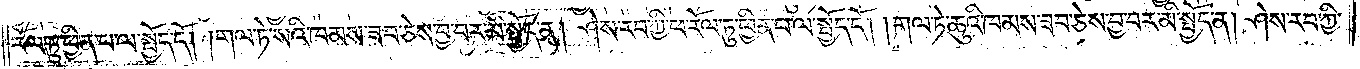རོལ་ཏུ་ཕྱིན་པ་ལ་སྤྱོད་དོ། །གལ་ཏེ་སའི་ཁམས་ཟབ་ཅེས་བྱ་བར་མི་སྤྱོད་ན། ཤེས་རབ་ཀྱི་ཕ་རོལ་ཏུ་ཕྱིན་པ་ལ་སྤྱོད་དོ། །གལ་ཏེ་ཆུའི་ཁམས་ཟབ་ཅེས་བྱ་བར་མི་སྤྱོད་ན། ཤེས་རབ་ཀྱི་
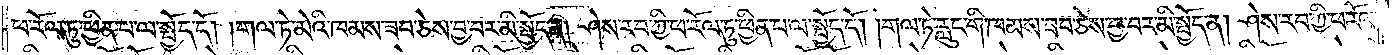ཕ་རོལ་ཏུ་ཕྱིན་པ་ལ་སྤྱོད་དོ། །གལ་ཏེ་མེའི་ཁམས་ཟབ་ཅེས་བྱ་བར་མི་སྤྱོད་ན། ཤེས་རབ་ཀྱི་ཕ་རོལ་ཏུ་ཕྱིན་པ་ལ་སྤྱོད་དོ། །གལ་ཏེ་རླུང་གི་ཁམས་ཟབ་ཅེས་བྱ་བར་མི་སྤྱོད་ན། ཤེས་རབ་ཀྱི་ཕ་རོལ་
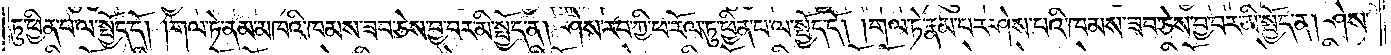ཏུ་ཕྱིན་པ་ལ་སྤྱོད་དོ། །གལ་ཏེ་ནམ་མཁའི་ཁམས་ཟབ་ཅེས་བྱ་བར་མི་སྤྱོད་ན། ཤེས་རབ་ཀྱི་ཕ་རོལ་ཏུ་ཕྱིན་པ་ལ་སྤྱོད་དོ། །གལ་ཏེ་རྣམ་པར་ཤེས་པའི་ཁམས་ཟབ་ཅེས་བྱ་བར་མི་སྤྱོད་ན། ཤེས་
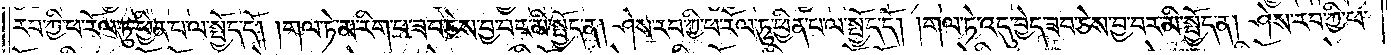རབ་ཀྱི་ཕ་རོལ་ཏུ་ཕྱིན་པ་ལ་སྤྱོད་དོ། །གལ་ཏེ་མ་རིག་པ་ཟབ་ཅེས་བྱ་བར་མི་སྤྱོད་ན། ཤེས་རབ་ཀྱི་ཕ་རོལ་ཏུ་ཕྱིན་པ་ལ་སྤྱོད་དོ། །གལ་ཏེ་འདུ་བྱེད་ཟབ་ཅེས་བྱ་བར་མི་སྤྱོད་ན། ཤེས་རབ་ཀྱི་ཕ་
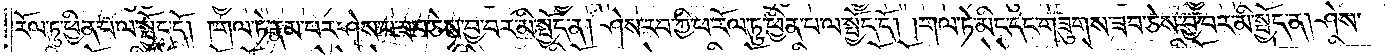རོལ་ཏུ་ཕྱིན་པ་ལ་སྤྱོད་དོ། །གལ་ཏེ་རྣམ་པར་ཤེས་པ་ཟབ་ཅེས་བྱ་བར་མི་སྤྱོད་ན། ཤེས་རབ་ཀྱི་ཕ་རོལ་ཏུ་ཕྱིན་པ་ལ་སྤྱོད་དོ། །གལ་ཏེ་མིང་དང་གཟུགས་ཟབ་ཅེས་བྱ་བར་མི་སྤྱོད་ན། ཤེས་
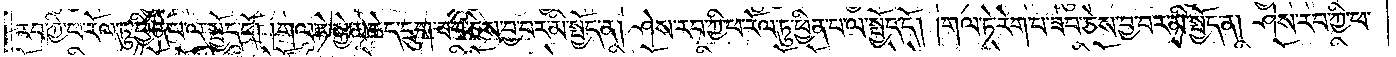རབ་ཀྱི་ཕ་རོལ་ཏུ་ཕྱིན་པ་ལ་སྤྱོད་དོ། །གལ་ཏེ་སྐྱེ་མཆེད་དྲུག་ཟབ་ཅེས་བྱ་བར་མི་སྤྱོད་ན། ཤེས་རབ་ཀྱི་ཕ་རོལ་ཏུ་ཕྱིན་པ་ལ་སྤྱོད་དོ། །གལ་ཏེ་རེག་པ་ཟབ་ཅེས་བྱ་བར་མི་སྤྱོད་ན། ཤེས་རབ་ཀྱི་ཕ་
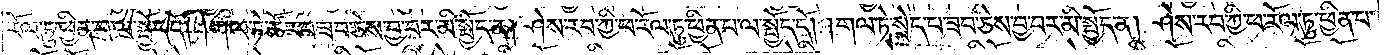རོལ་ཏུ་ཕྱིན་པ་ལ་སྤྱོད་དོ། །གལ་ཏེ་ཚོར་བ་ཟབ་ཅེས་བྱ་བར་མི་སྤྱོད་ན། ཤེས་རབ་ཀྱི་ཕ་རོལ་ཏུ་ཕྱིན་པ་ལ་སྤྱོད་དོ། །གལ་ཏེ་སྲེད་པ་ཟབ་ཅེས་བྱ་བར་མི་སྤྱོད་ན། ཤེས་རབ་ཀྱི་ཕ་རོལ་ཏུ་ཕྱིན་པ་
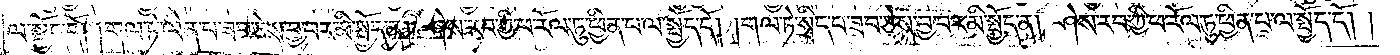ལ་སྤྱོད་དོ། །གལ་ཏེ་ལེན་པ་ཟབ་ཅེས་བྱ་བར་མི་སྤྱོད་ན། ཤེས་རབ་ཀྱི་ཕ་རོལ་ཏུ་ཕྱིན་པ་ལ་སྤྱོད་དོ། །གལ་ཏེ་སྲིད་པ་ཟབ་ཅེས་བྱ་བར་མི་སྤྱོད་ན། ཤེས་རབ་ཀྱི་ཕ་རོལ་ཏུ་ཕྱིན་པ་ལ་སྤྱོད་དོ། །
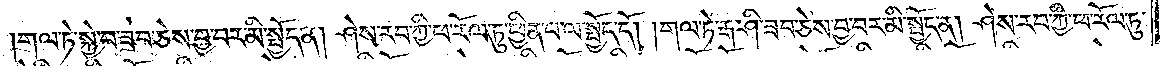གལ་ཏེ་སྐྱེ་བ་ཟབ་ཅེས་བྱ་བར་མི་སྤྱོད་ན། ཤེས་རབ་ཀྱི་ཕ་རོལ་ཏུ་ཕྱིན་པ་ལ་སྤྱོད་དོ། །གལ་ཏེ་རྒ་ཤི་ཟབ་ཅེས་བྱ་བར་མི་སྤྱོད་ན། ཤེས་རབ་ཀྱི་ཕ་རོལ་ཏུ་
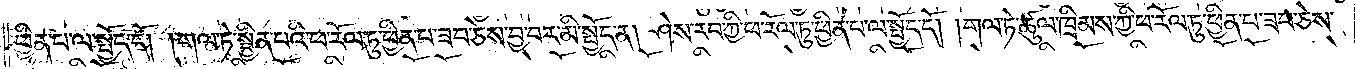ཕྱིན་པ་ལ་སྤྱོད་དོ། །གལ་ཏེ་སྦྱིན་པའི་ཕ་རོལ་ཏུ་ཕྱིན་པ་ཟབ་ཅེས་བྱ་བར་མི་སྤྱོད་ན། ཤེས་རབ་ཀྱི་ཕ་རོལ་ཏུ་ཕྱིན་པ་ལ་སྤྱོད་དོ། །གལ་ཏེ་ཚུལ་ཁྲིམས་ཀྱི་ཕ་རོལ་ཏུ་ཕྱིན་པ་ཟབ་ཅེས་
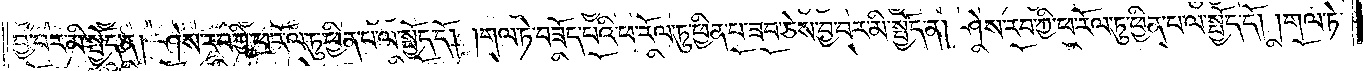བྱ་བར་མི་སྤྱོད་ན། ཤེས་རབ་ཀྱི་ཕ་རོལ་ཏུ་ཕྱིན་པ་ལ་སྤྱོད་དོ། །གལ་ཏེ་བཟོད་པའི་ཕ་རོལ་ཏུ་ཕྱིན་པ་ཟབ་ཅེས་བྱ་བར་མི་སྤྱོད་ན། ཤེས་རབ་ཀྱི་ཕ་རོལ་ཏུ་ཕྱིན་པ་ལ་སྤྱོད་དོ། །གལ་ཏེ་
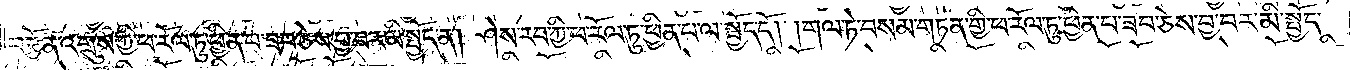བརྩོན་འགྲུས་ཀྱི་ཕ་རོལ་ཏུ་ཕྱིན་པ་ཟབ་ཅེས་བྱ་བར་མི་སྤྱོད་ན། ཤེས་རབ་ཀྱི་ཕ་རོལ་ཏུ་ཕྱིན་པ་ལ་སྤྱོད་དོ། །གལ་ཏེ་བསམ་གཏན་གྱི་ཕ་རོལ་ཏུ་ཕྱིན་པ་ཟབ་ཅེས་བྱ་བར་མི་སྤྱོད་
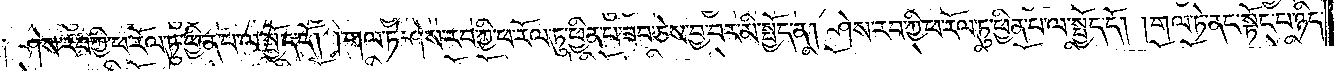༑ ཤེས་རབ་ཀྱི་ཕ་རོལ་ཏུ་ཕྱིན་པ་ལ་སྤྱོད་དོ། །གལ་ཏེ་ཤེས་རབ་ཀྱི་ཕ་རོལ་ཏུ་ཕྱིན་པ་ཟབ་ཅེས་བྱ་བར་མི་སྤྱོད་ན། ཤེས་རབ་ཀྱི་ཕ་རོལ་ཏུ་ཕྱིན་པ་ལ་སྤྱོད་དོ། །གལ་ཏེ་ནང་སྟོང་པ་ཉིད་
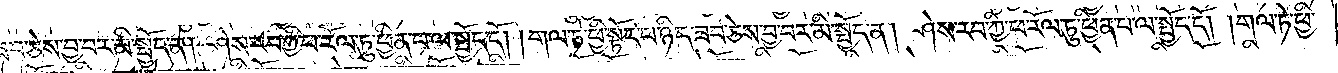ཟབ་ཅེས་བྱ་བར་མི་སྤྱོད་ན། ཤེས་རབ་ཀྱི་ཕ་རོལ་ཏུ་ཕྱིན་པ་ལ་སྤྱོད་དོ། །གལ་ཏེ་ཕྱི་སྟོང་པ་ཉིད་ཟབ་ཅེས་བྱ་བར་མི་སྤྱོད་ན། ཤེས་རབ་ཀྱི་ཕ་རོལ་ཏུ་ཕྱིན་པ་ལ་སྤྱོད་དོ། །གལ་ཏེ་ཕྱི་
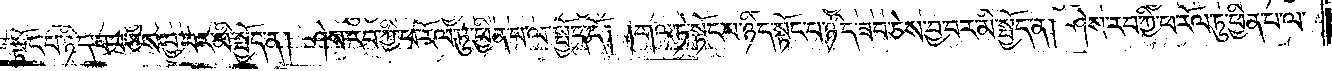སྟོང་པ་ཉིད་ཟབ་ཅེས་བྱ་བར་མི་སྤྱོད་ན། ཤེས་རབ་ཀྱི་ཕ་རོལ་ཏུ་ཕྱིན་པ་ལ་སྤྱོད་དོ། །གལ་ཏེ་སྟོང་པ་ཉིད་སྟོང་པ་ཉིད་ཟབ་ཅེས་བྱ་བར་མི་སྤྱོད་ན། ཤེས་རབ་ཀྱི་ཕ་རོལ་ཏུ་ཕྱིན་པ་ལ་
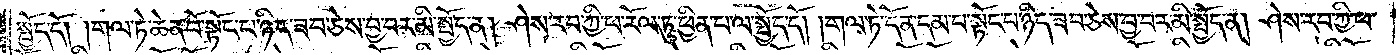སྤྱོད་དོ། །གལ་ཏེ་ཆེན་པོ་སྟོང་པ་ཉིད་ཟབ་ཅེས་བྱ་བར་མི་སྤྱོད་ན། ཤེས་རབ་ཀྱི་ཕ་རོལ་ཏུ་ཕྱིན་པ་ལ་སྤྱོད་དོ། །གལ་ཏེ་དོན་དམ་པ་སྟོང་པ་ཉིད་ཟབ་ཅེས་བྱ་བར་མི་སྤྱོད་ན། ཤེས་རབ་ཀྱི་ཕ་
